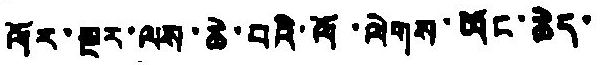ལོར་སྔར་ལས་ཆེ་བའི་ལོ་ལེགས་ཡོང་ཆེད་
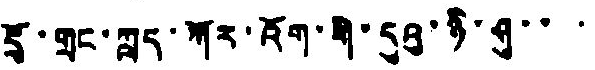དྲོ་གྲང་ཀླད་ཀོར་འོག་གི་དུའུ་ཉི་ཤུ་་་་
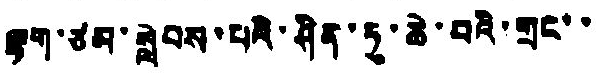ལྷག་ཙམ་སླེབས་པའི་ཤིན་ཏུ་ཆེ་བའི་གྲང་་
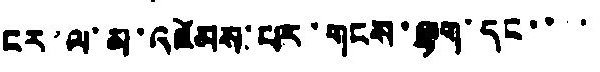ངར་ལ་མ་འཛེམས་པར་གངས་ལྷག་དང་་་་
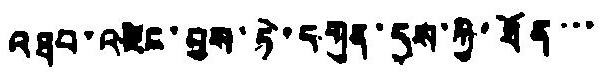འཐབ་འཛིང་བྱས་ཏེ་དགུན་དུས་ཀྱི་ཐོན་་་
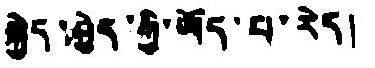སྐྱེད་བྱེད་ཀྱི་ཡོད་པ་རེད།
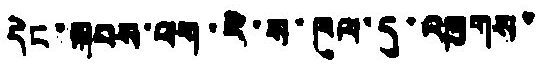དེང་སྐབས་ཕག་རི་ས་ཁུལ་དུ་འཁུགས་
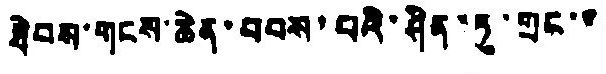ཐེབས་གངས་ཆེན་བབས་པའི་ཤིན་ཏུ་གྲང་་
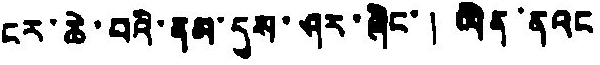ངར་ཆེ་བའི་ནམ་དུས་ཤར་ཤིང་། ཡིན་ནའང
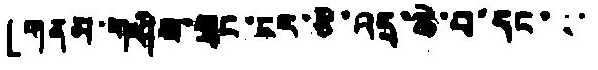「གནམ་གཤིས་གྲང་ངར་ཅི་འདྲ་ཆེ་བ་དང་་་
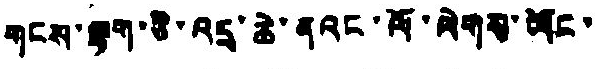གངས་ལྷག་ཅི་འདྲ་ཆེ་ནའང་ལོ་ལེགས་ཡོང་
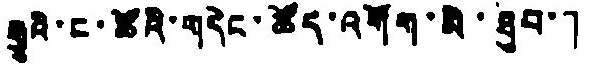རྒྱུའི་ང་ཚོའི་གདེངས་ཚོད་འགོག་མི་ཐུབ་」
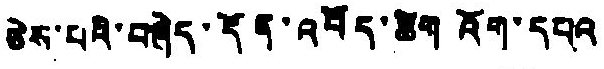ཅེས་པའི་བཞེད་དོན་འབོད་ཚིག འོག་དཔའ
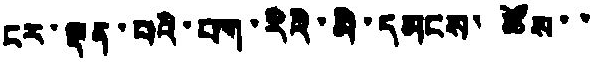ངར་ལྡན་པའི་པག་རིའི་མི་དམངས་ཚོས་་
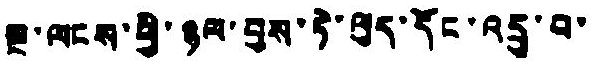སྔ་ལངས་ཕྱི་ཉལ་བྱས་ཏེ་ལུད་དོང་འདྲུ་བ་
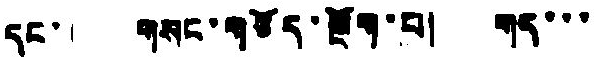དང་། གསང་གཅོད་སྡོག་པ། གད་་་
